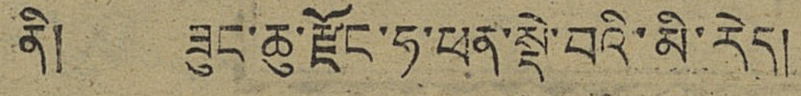ནི། ཟུང་ཆུ་རྫོང་ཧ་ཕན་སྡེ་བའི་མི་རེད།
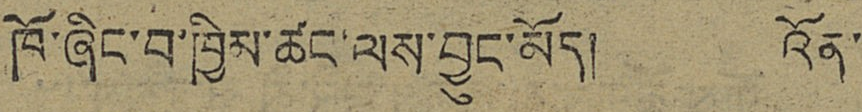ཁོ་ཞིང་བ་ཁྱིམ་ཚང་ལས་བྱུང་མོད། འོན་
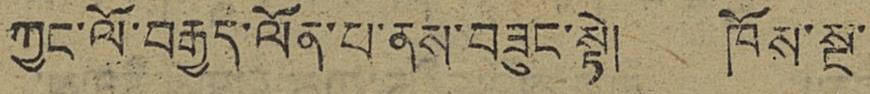ཀྱང་ལོ་བརྒྱད་ལོན་པ་ནས་བཟུང་སྟེ། ཁོས་སྔ་
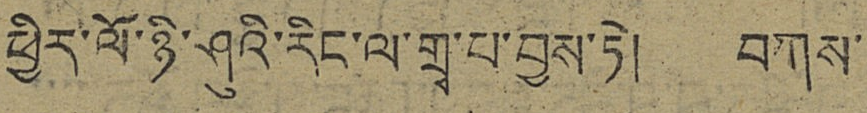ཕྱིར་ལོ་ཉི་ཤུའི་རིང་ལ་གྲྭ་པ་བྱས་ཏེ། བཀས་
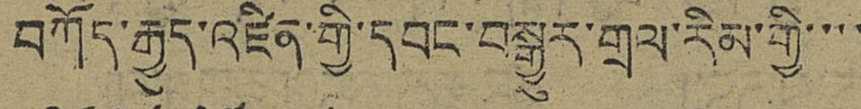བཀོད་རྒྱུད་འཛིན་གྱི་དབང་བསྒྱུར་གྲལ་རིམ་གྱི་་་་
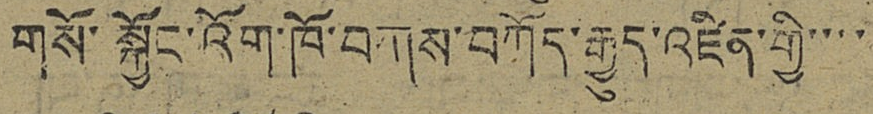གསོ་སྐྱོང་འོག་ཁོ་བཀས་བཀོད་རྒྱུད་འཛིན་གྱི་་་་
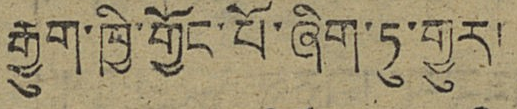རྒྱུག་ཁྱི་གྱོང་པོ་ཞིག་ཏུ་གྱུར།
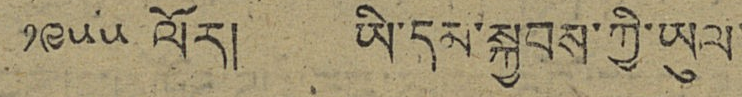༡༩༥༥ ལོར། ཡི་དམ་སྐྱབས་ཀྱི་ཡུལ་
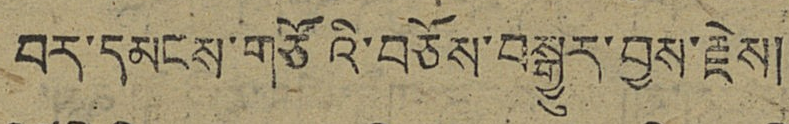བར་དམངས་གཙོའི་བཅོས་བསྒྱུར་བྱས་རྗེས།
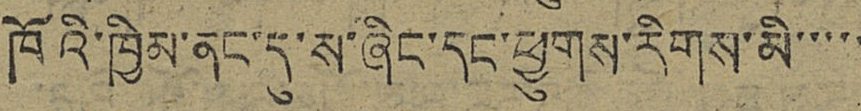ཁོའི་ཁྱིམ་ནང་དུ་ས་ཞིང་དང་ཕྱུགས་རིགས་མི་་་་་
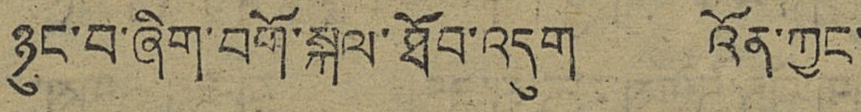ཉུང་བ་ཞིག་བགོ་སྐལ་ཐོབ་འདུག འོན་ཀྱང་
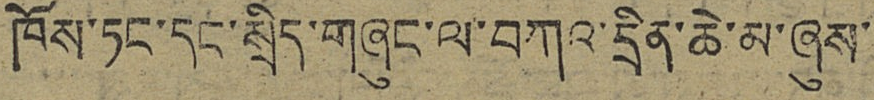ཁོས་ཏང་དང་སྲིད་གཞུང་ལ་བཀའ་དྲིན་ཆེ་མ་ཞུས་
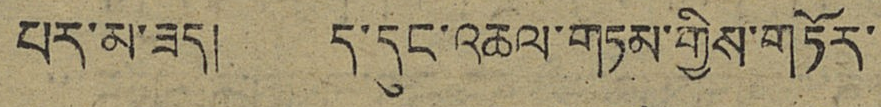པར་མ་ཟད། ད་དུང་འཆལ་གཏམ་གྱིས་གཏོར་
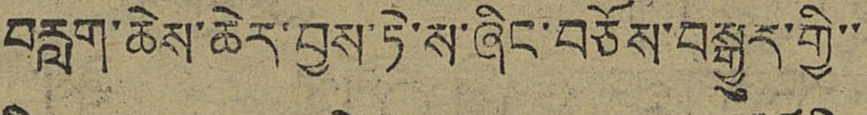བརླག་ཆེས་ཆེར་བྱས་ཏེ་ས་ཞིང་བཅོས་བསྒྱུར་གྱི་་
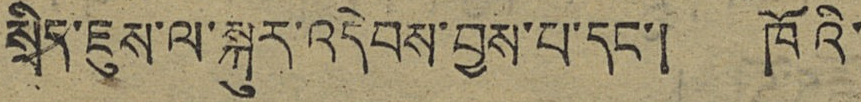སྲིད་ཇུས་ལ་སྐུར་འདེབས་བྱས་པ་དང་། ཁོའི་
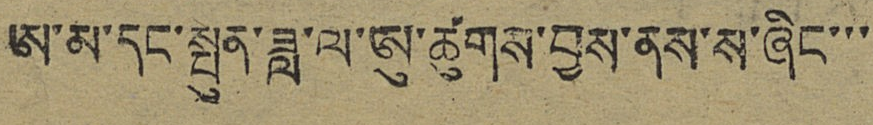ཨ་མ་དང་སྤུན་ཟླ་ལ་ཨུ་ཚུགས་བྱས་ནས་ས་ཞིང་་་
